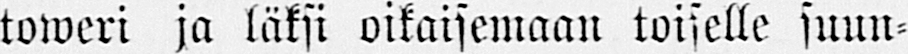toweri ja läksi oikaisemaan toiselle suun-
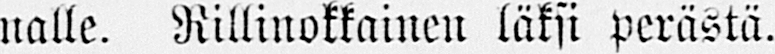nalle. Rillinokkainen läksi perästä.
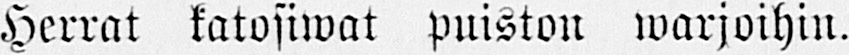Herrat katosiwat puiston warjoihin.
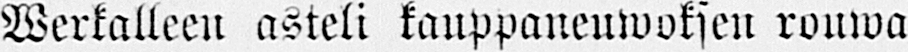Werkalleen asteli kauppaneuwoksen rouwa
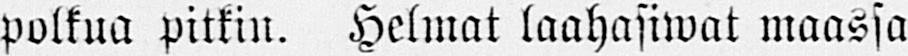polkua pitkin. Helmat laahasiwat maassa
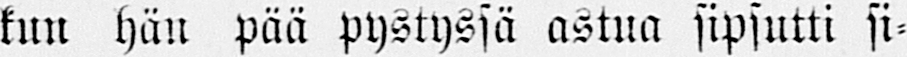kun hän pää pystyssä astua sipsutti si-
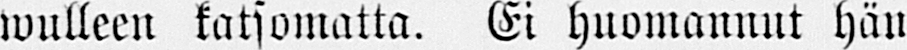wulleen katsomatta. Ei huomannut hän
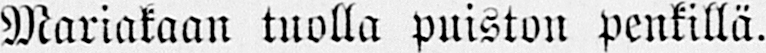Mariakaan tuolla puiston penkillä.
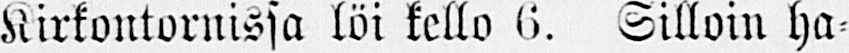Kirkontornissa löi kello 6. Silloin ha-
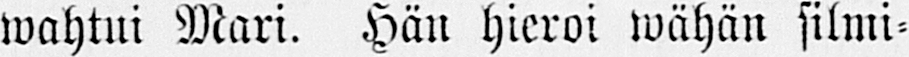wahtui Mari. Hän hieroi wähän silmi-
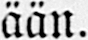ään.
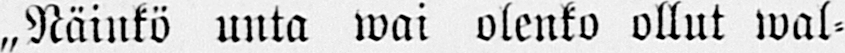„Näinkö unta wai olenko ollut wal-
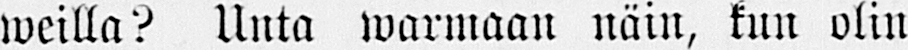weilla? Unta warmaan näin, kun olin
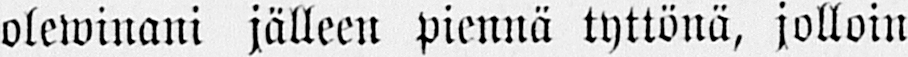olewinani jälleen piennä tyttönä, jolloin
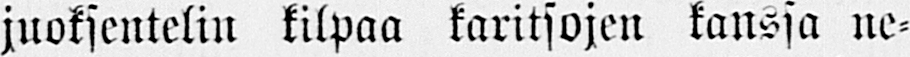juoksentelin kilpaa karitsojen kanssa ne-
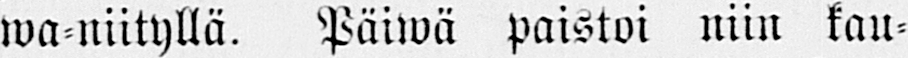wa-niityllä. Päiwä paistoi niin kau-
